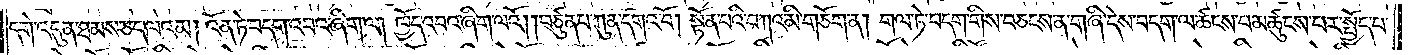དགེ་འདུན་ཐམས་ཅད་ལའམ། འོན་ཏེ་བདག་འབའ་ཞིག་ལ། ཁྱོད་འབའ་ཞིག་ལའོ། །བཙུན་པ་ཀུན་དགའ་བོ། སྟོན་པའི་བཀའ་མི་གཅོག་ན། གལ་ཏེ་བདག་གིས་བཅངས་ན་གཞི་དེས་བདག་ལ་ཚངས་པ་མཚུངས་པར་སྤྱོད་པ་
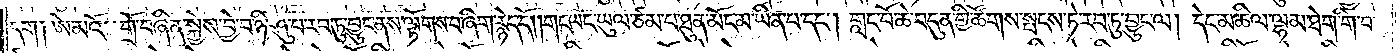དག༑  ཨེ་མའོ་འགྲོ་བཞིན་སྐྱེས་བྱེ་བ་ཉི་ཤུ་པ་རབ་ཏུ་བྱུང་ནས་ལྟོགས་པ་ཞིག་རྙེད་དོ། །གང་ཡང་ཡུལ་ཙམ་པ་ཐུན་མོང་མ་ཡིན་པ་དང༌། གླང་པོ་ཆེ་བདུན་གྱི་ཚོགས་སྤངས་ཏེ་རབ་ཏུ་བྱུང་ལ། དེང་མཆིལ་ལྷམ་ཐེག་གི་བ་
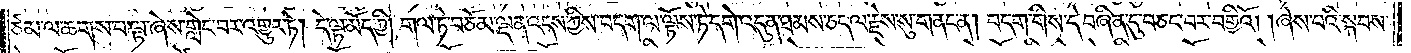ཙམ་ལ་ཆགས་པ་ལྟ་ཞེས་གླེང་བར་འགྱུར་ཏེ། དེ་ལྟ་མོད་ཀྱི། གལ་ཏེ་བཅོམ་ལྡན་འདས་ཀྱིས་བདག་ལ་ལྟོས་ཏེ་དགེ་འདུན་ཐམས་ཅད་ལ་རྗེས་སུ་གནང་ན། བདག་གིས་དེ་བཞིན་དུ་བཅང་བར་བགྱིའོ། །ཞེས་པའི་སྐབས་
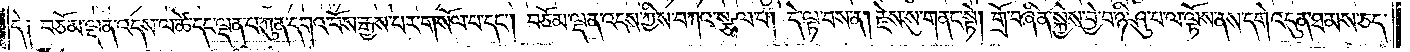དེ༑ བཅོམ་ལྡན་འདས་ལ་ཚེ་དང་ལྡན་པ་ཀུན་དགའ་བོས་རྒྱས་པར་གསོལ་པ་དང༌། བཅོམ་ལྡན་འདས་ཀྱིས་བཀའ་སྩལ་པ། དེ་ལྟ་བས་ན། རྗེས་སུ་གནང་སྟེ། གྲོ་བཞིན་སྐྱེས་བྱེ་བ་ཉི་ཤུ་པ་ལ་ལྟོས་ནས་དགེ་འདུན་ཐམས་ཅད་
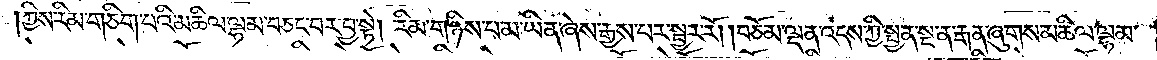།ཀྱིས་རིམ་གཅིག་པའི་མཆིལ་ལྷམ་བཅང་བར་བྱ་སྟེ། རིམ་གཉིས་པ་མ་ཡིན་ཞེས་རྒྱས་པར་སྦྱར་རོ། །བཅོམ་ལྡན་འདས་ཀྱི་སྤྱན་སྔ་ན་རྒན་ཞུགས་མཆིལ་ལྷམ་
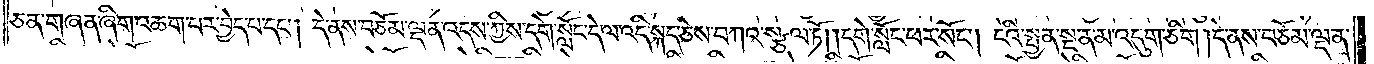ཅན་གཞན་ཞིག་འཆག་པར་བྱེད་པ་དང༌། དེ་ནས་བཅོམ་ལྡན་འདས་ཀྱིས་དགེ་སློང་དེ་ལ་འདི་སྐད་ཅེས་བཀའ་སྩལ་ཏོ། །དགེ་སློང་ཕར་སོང༌། ངའི་སྤྱན་སྔ་ན་མ་འདུག་ཅིག །དེ་ནས་བཅོམ་ལྡན་
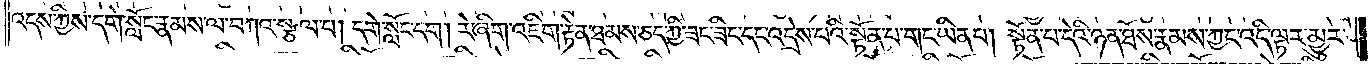འདས་ཀྱིས་དགེ་སློང་རྣམས་ལ་བཀའ་སྩལ་པ། དགེ་སློང་དག། རེ་ཞིག་འཇིག་རྟེན་ཐམས་ཅད་ཀྱི་ཟང་ཟིང་དང་འདྲེས་པའི་སྟོན་པ་གང་ཡིན་པ། སྟོན་པ་དེའི་ཉན་ཐོས་རྣམས་ཀྱང་འདི་ལྟར་མྱུར་
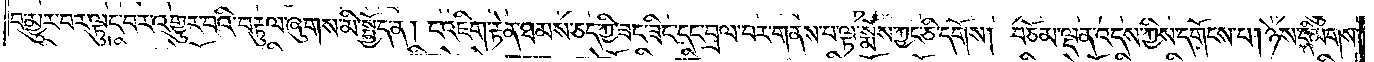བ་མྱུར་བར་ལྟུང་བར་འགྱུར་བའི་བརྟུལ་ཞུགས་མི་སྤྱོད་ན། ང་འཇིག་རྟེན་ཐམས་ཅད་ཀྱི་ཟང་ཟིང་དང་བྲལ་བར་གནས་པ་ལྟ་སྨོས་ཀྱང་ཅི་དགོས། བཅོམ་ལྡན་འདས་ཀྱིས་དགོངས་པ། ཉེས་དམིགས་
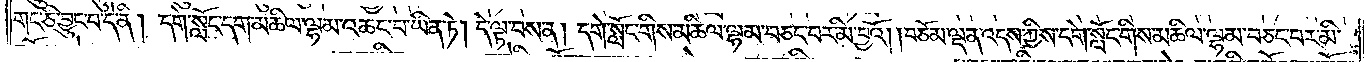གང་ཅི་བྱུང་བ་དེ་ནི། དགེ་སློང་དག་མཆིལ་ལྷམ་འཆང་བ་ཡིན་ཏེ། དེ་ལྟ་བས་ན། དགེ་སློང་གིས་མཆིལ་ལྷམ་བཅང་བར་མི་བྱའོ། །བཅོམ་ལྡན་འདས་ཀྱིས་དགེ་སློང་གིས་མཆིལ་ལྷམ་བཅང་བར་མི་
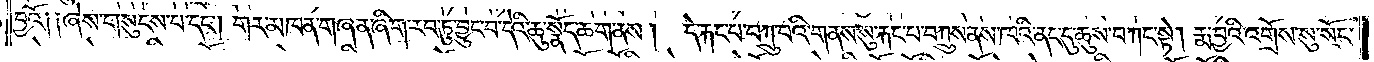བྱའོ༑ ༑ཞེས་གསུངས་པ་དང༌། གར་མཁན་གཞན་ཞིག་རབ་ཏུ་བྱུང་བ་དེའི་ཆུ་སྣོད་ཆག་ནས། དེ་རྐང་པ་བཀྲུ་བའི་གནས་སུ་རྐང་པ་བཀྲུས་ནས་ཁའི་ནང་དུ་ཆུས་བཀང་སྟེ། རྨ་བྱའི་འགྲོས་སུ་སོང་
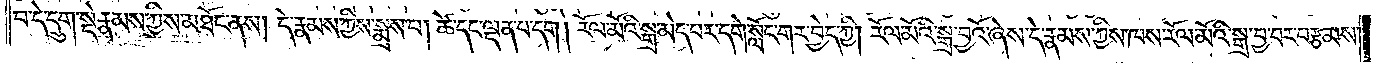བ་དེ་དྲུག་སྡེ་རྣམས་ཀྱིས་མཐོང་ནས། དེ་རྣམས་ཀྱིས་སྨྲས་པ། ཚེ་དང་ལྡན་པ་དག །རོལ་མོའི་སྒྲ་མེད་པར་དགེ་སློང་གར་བྱེད་ཀྱི། རོལ་མོའི་སྒྲ་བྱའོ་ཞེས་དེ་རྣམས་ཀྱིས་ཁས་རོལ་མོའི་སྒྲ་བྱ་བར་བརྩམས་
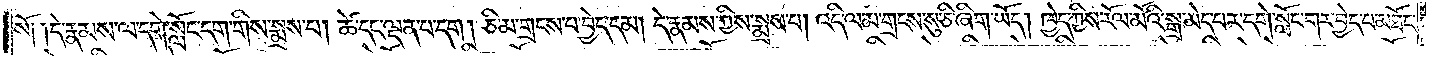སོ༑ ༑དེ་རྣམས་ལ་དགེ་སློང་དག་གིས་སྨྲས་པ། ཚེ་དང་ལྡན་པ་དག། ཅི་མ་གྲངས་པ་བྱེད་དམ། དེ་རྣམས་ཀྱིས་སྨྲས་པ། འདི་ལ་མ་གྲངས་སུ་ཅི་ཞིག་ཡོད། ཁྱེད་ཀྱིས་རོལ་མོའི་སྒྲ་མེད་པར་དགེ་སློང་གར་བྱེད་པ་མཐོང་
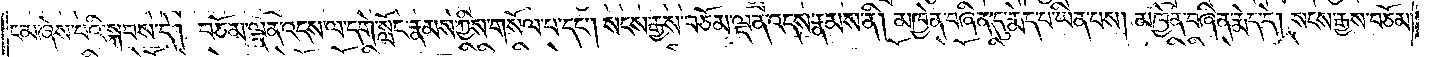ངམ་ཞེས་པའི་སྐབས་དེ། བཅོམ་ལྡན་འདས་ལ་དགེ་སློང་རྣམས་ཀྱིས་གསོལ་པ་དང༌། སངས་རྒྱས་བཅོམ་ལྡན་འདས་རྣམས་ནི། མཁྱེན་བཞིན་དུ་རྨེད་པ་ཡིན་པས། མཁྱེན་བཞིན་རྨེད་དེ། སངས་རྒྱས་བཅོམ་
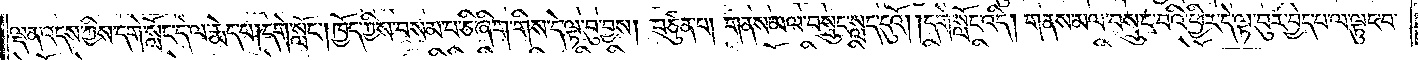ལྡན་འདས་ཀྱིས་དགེ་སློང་དེ་ལ་རྨེད་པ། དགེ་སློང༌། ཁྱོད་ཀྱིས་བསམ་པ་ཅི་ཞིག་གིས་དེ་ལྟ་བུ་བྱས། བཙུན་པ། གནས་མལ་བསྲུང་སླད་དུའོ། །དགེ་སློང་འདི། གནས་མལ་བསྲུང་བའི་ཕྱིར་དེ་ལྟ་བུར་བྱེད་པ་ལ་ལྟུང་བ་
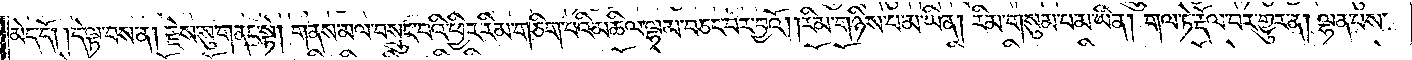མེད་དོ། །དེ་ལྟ་བས་ན། རྗེས་སུ་གནང་སྟེ། གནས་མལ་བསྲུང་བའི་ཕྱིར་རིམ་གཅིག་པའི་མཆིལ་ལྷམ་བཅང་བར་བྱའོ། །རིམ་གཉིས་པ་མ་ཡིན། རིམ་གསུམ་པ་མ་ཡིན། གལ་ཏེ་རྡོལ་བར་གྱུར་ན། ལྷན་པས་
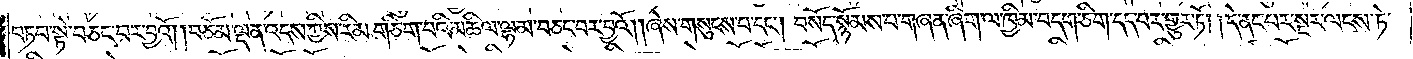བཏབ་སྟེ་བཅང་བར་བྱའོ། །བཅོམ་ལྡན་འདས་ཀྱིས་རིམ་གཅིག་པའི་མཆིལ་ལྷམ་བཅང་བར་བྱའོ། །ཞེས་གསུངས་པ་དང༌། བསོད་སྙོམས་པ་གཞན་ཞིག་ལ་ཁྱིམ་བདག་ཅིག་དད་པར་གྱུར་ཏོ། །དེ་ནང་པར་སྔར་ལངས་ཏེ་
